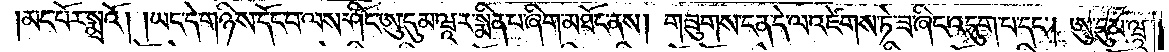མང་པོར་སྨྲའོ། །ཡང་དེ་གཉིས་དོང་བ་ལས་ཤིང་ཨུ་དུམ་ཝཱ་ར་སྨིན་པ་ཞིག་མཐོང་ནས། གཟུགས་ངན་དེ་ལ་འཛེགས་ཏེ་ཟ་ཞིག་འདུག་པ་དང༌། ཨུ་དུམ་ཝཱ་
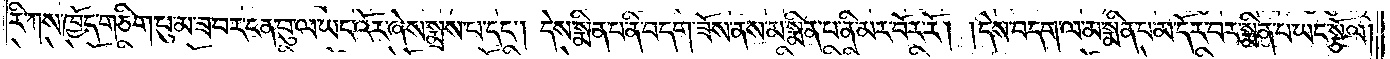རི་ཀས་ཁྱོད་གཅིག་པུ་མ་ཟ་བར་ངན་བུ་ལ་ཡང་འོར་ཞེས་སྨྲས་པ་དང༌། དེས་སྨིན་པ་ནི་བདག་ཟོས་ནས་མ་སྨིན་པ་ནི་མར་བོར་རོ། །དེས་བདག་ལ་མ་སྨིན་པ་མདོར་བར་སྨིན་པ་ཡང་སྩོལ།
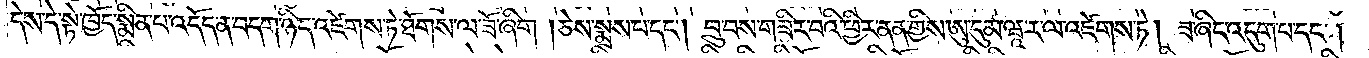དེས་དེ་སྟེ་ཁྱོད་སྨིན་པ་འདོད་ན་བདག་ཉིད་འཛེགས་ཏེ་ཐོགས་ལ་ཟོ་ཞིག །ཅེས་སྨྲས་པ་དང༌། བྲུ་བས་གཟིར་བའི་ཕྱིར་ནན་གྱིས་ཨུ་དུམ་ཝཱ་ར་ལ་འཛེགས་ཏེ། ཟ་ཞིང་འདུག་པ་དང༌།
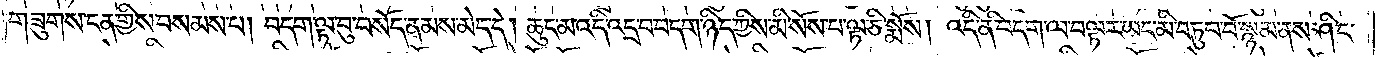གཟུགས་ངན་གྱིས་བསམས་པ། བདག་ལྟ་བུ་བསོད་ནམས་མེད་དེ། ཆུང་མ་འདི་འདྲ་བ་བདག་ཉིད་ཀྱིས་མི་སོས་པ་ལྟ་ཅི་སྨོས། འདི་ནི་བདག་ལ་བལྟར་ཡང་མི་བཏུབ་བོ་སྙམ་ནས་ཤིང་
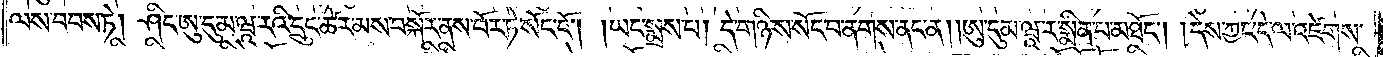ལས་བབས་ཏེ། ཤིང་ཨུ་དུམ་ཝཱ་རིའི་དྲུང་ཚེར་མས་བསྐོར་ནས་བོར་ཏེ་སོང་ངོ༌། །ཡང་སྨྲས་པ། དེ་གཉིས་སོང་བ་ནགས་ནང་ན། །ཨུ་དུམ་ཝཱ་ར་སྨིན་པ་མཐོང༌། །དེས་ཀྱང་དེ་ལ་འཛེགས་
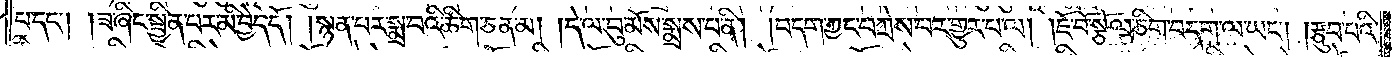པ་དང༌། །ཟ་ཞིང་སྦྱིན་པར་མི་བྱེད་དོ། །སྙན་པར་སྨྲ་བའི་ཚིག་ཅན་མ། །དེ་ལ་བུ་མོས་སྨྲས་པ་ནི། །བདག་ཀྱང་བཀྲེས་པར་གྱུར་པ་ལ། །ཇོ་བོ་སྩོལ་ཅིག་བདག་ལ་ཡང༌། །རྩུབ་པའི་
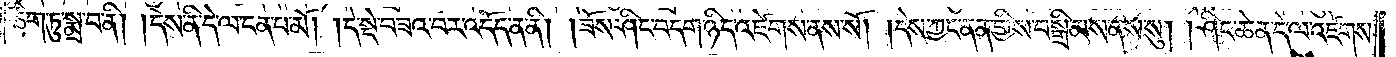ཚིག་ཏུ་སྨྲ་བ་ནི། །དེས་ནི་དེ་ལ་ངན་པ་མོ། །དེ་སྡེ་བཟའ་བར་འདོད་ན་ནི། །ཟོས་ཤིང་བདག་ཉིད་འཛེགས་ནས་སོ། །དེས་ཀྱང་ནན་གྱིས་བསྒྲིམས་ནས་སུ། །ཤིང་ཆེན་དེ་ལ་འཛེགས་
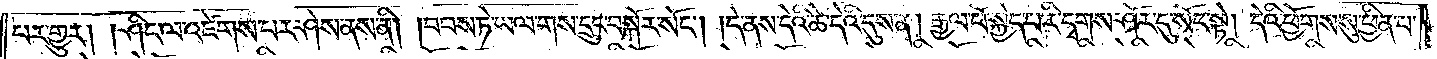པར་གྱུར། །ཤིང་ལ་འཛེགས་པར་ཤེས་ནས་ནི། །བབས་ཏེ་ཡལ་གས་དྲུང་བསྐོར་སོང༌། །དེ་ནས་དེའི་ཚེ་དེའི་དུས་ན། རྒྱལ་པོ་སྐྱེད་པ་རི་དྭགས་ཤོར་དུ་སོང་སྟེ། དེའི་ཕྱོགས་སུ་ཕྱིན་པ་
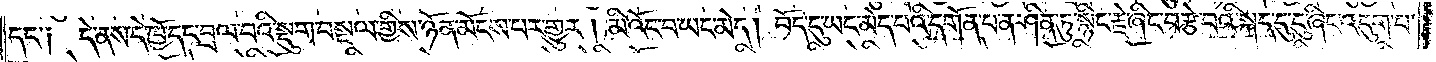དང་༑ དེ་ནས་དེ་ཁྱོད་དང་བྲལ་བའི་སྡུག་བསྔལ་གྱིས་ཉོན་མོངས་པར་གྱུར། །མི་འོང་བ་ཡང་མེད། བོད་དུ་ཡང་མེད་པའི་དགོན་པ་ན་ཤིན་ཏུ་སྙིང་རྗེ་ཞིང་བརྩེ་བའི་སྐད་དུ་ངུ་ཞིང་འདུག་པ་
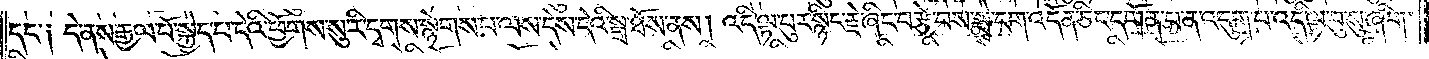དང༌། དེ་ནས་རྒྱལ་པོ་སྐྱེད་པ་དེའི་ཕྱོགས་སུ་རི་དྭགས་སྙེགས་པ་ལས་དེས་དེའི་སྒྲ་ཐོས་ནས། འདི་ལྟ་བུར་སྙིང་རྗེ་ཞིང་བརྩེ་བས་སྨྲེ་ངག་འདོན་ཅིང་དགོན་པ་ན་འདུག་པ་འདི་ལྟ་བུ་ཞིག་
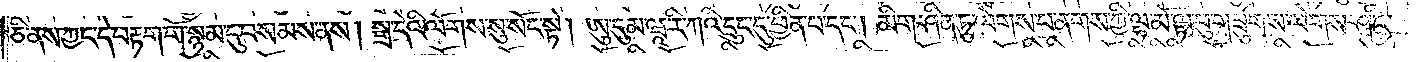ཅི་ནས་ཀྱང་དེ་བརྟག་གོ་སྙམ་དུ་བསམས་ནས། སྒྲ་དེའི་ལོགས་སུ་སོང་སྟེ། ཨུ་དུམ་ཝཱ་རི་ཀའི་དྲུང་དུ་ཕྱིན་པ་དང༌། མིག་ཤིན་ཏུ་ལེགས་པ་ནགས་ཀྱི་ལྷ་མོ་ལྟ་བུ་གཟུགས་ལེགས་ཤིང་
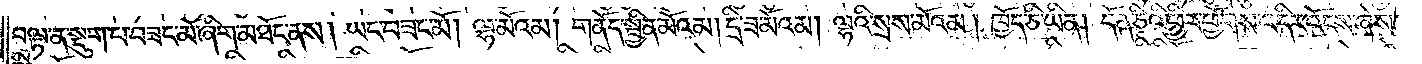བལྟ་ན་སྡུག་པ་བཟང་མོ་ཞིག་མཐོང་ནས། ཡང་བཟང་མོ། ལྷ་མོའམ། གནོད་སྦྱིན་མོའམ། དྲི་ཟ་མོའམ། ལྷའི་སྲས་མོའམ། ཁྱོད་ཅི་ཡིན། དོན་ཅིའི་ཕྱིར་ཕྱོགས་འདིར་འོངས་ཞེས་
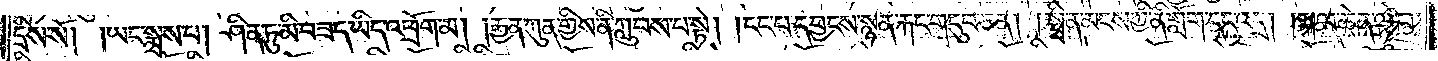དྲིས་སོ། །ཡང་སྨྲས་པ། ཤིན་ཏུ་མི་བཟད་ཡིད་འཕྲོག་མ། །རྒྱན་ཀུན་གྱིས་ནི་ཀླུབས་པ་སྟེ། །ངང་པ་དབྱངས་སྙན་རྐང་གདུབ་ཅན། །སྤྲིན་མངས་ཀྱི་ནི་གློག་དང་འདྲ། །སྐལ་ཆེན་ལྟེ་བ་
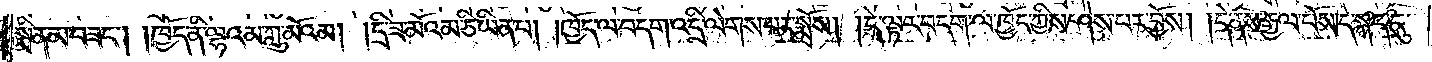སྨིན་མ་བཟང༌། །ཁྱོད་ནི་ལྷའམ་ཀླུ་མོའམ། །དྲི་ཟ་མོའམ་ཅི་ཡིན་པ། །ཁྱོད་ལ་བདག་འདྲི་ལེགས་པར་སྨྲོས། །དེ་ལྟར་བདག་ལ་ཁྱོད་ཀྱིས་ཤེས་པར་བྱོས། །དེ་ནས་རྒྱལ་པོས་དེ་སྐད་དུ་
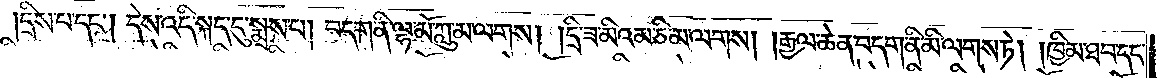དྲིས་པ་དང༌། དེས་འདི་སྐད་དུ་སྨྲས་པ། བདག་ནི་ལྷ་མོ་ཀླུ་མ་ལགས། །དྲི་ཟ་མིའམ་ཅི་མ་ལགས། །རྒྱལ་ཆེན་བདག་ནི་མི་ལགས་ཏེ། །ཁྱིམ་ཐབ་དང་
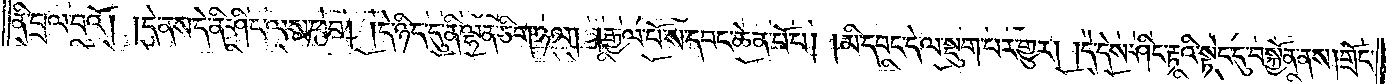ནི་བྲལ་བའོ། །དེ་ནས་དེ་ནི་ཤིང་ལས་ཕབ། །དེ་ཉིད་དུ་ནི་ལྷན་ཅིག་ཉལ། །རྒྱལ་པོ་ས་དབང་ཆེན་པོ་པ། །མི་དབང་དེ་ལ་སྡུག་པར་གྱུར། །དེ་དེས་ཤིང་རྟའི་སྟེང་དུ་བསྐྱོན་ནས། གྲོང་
